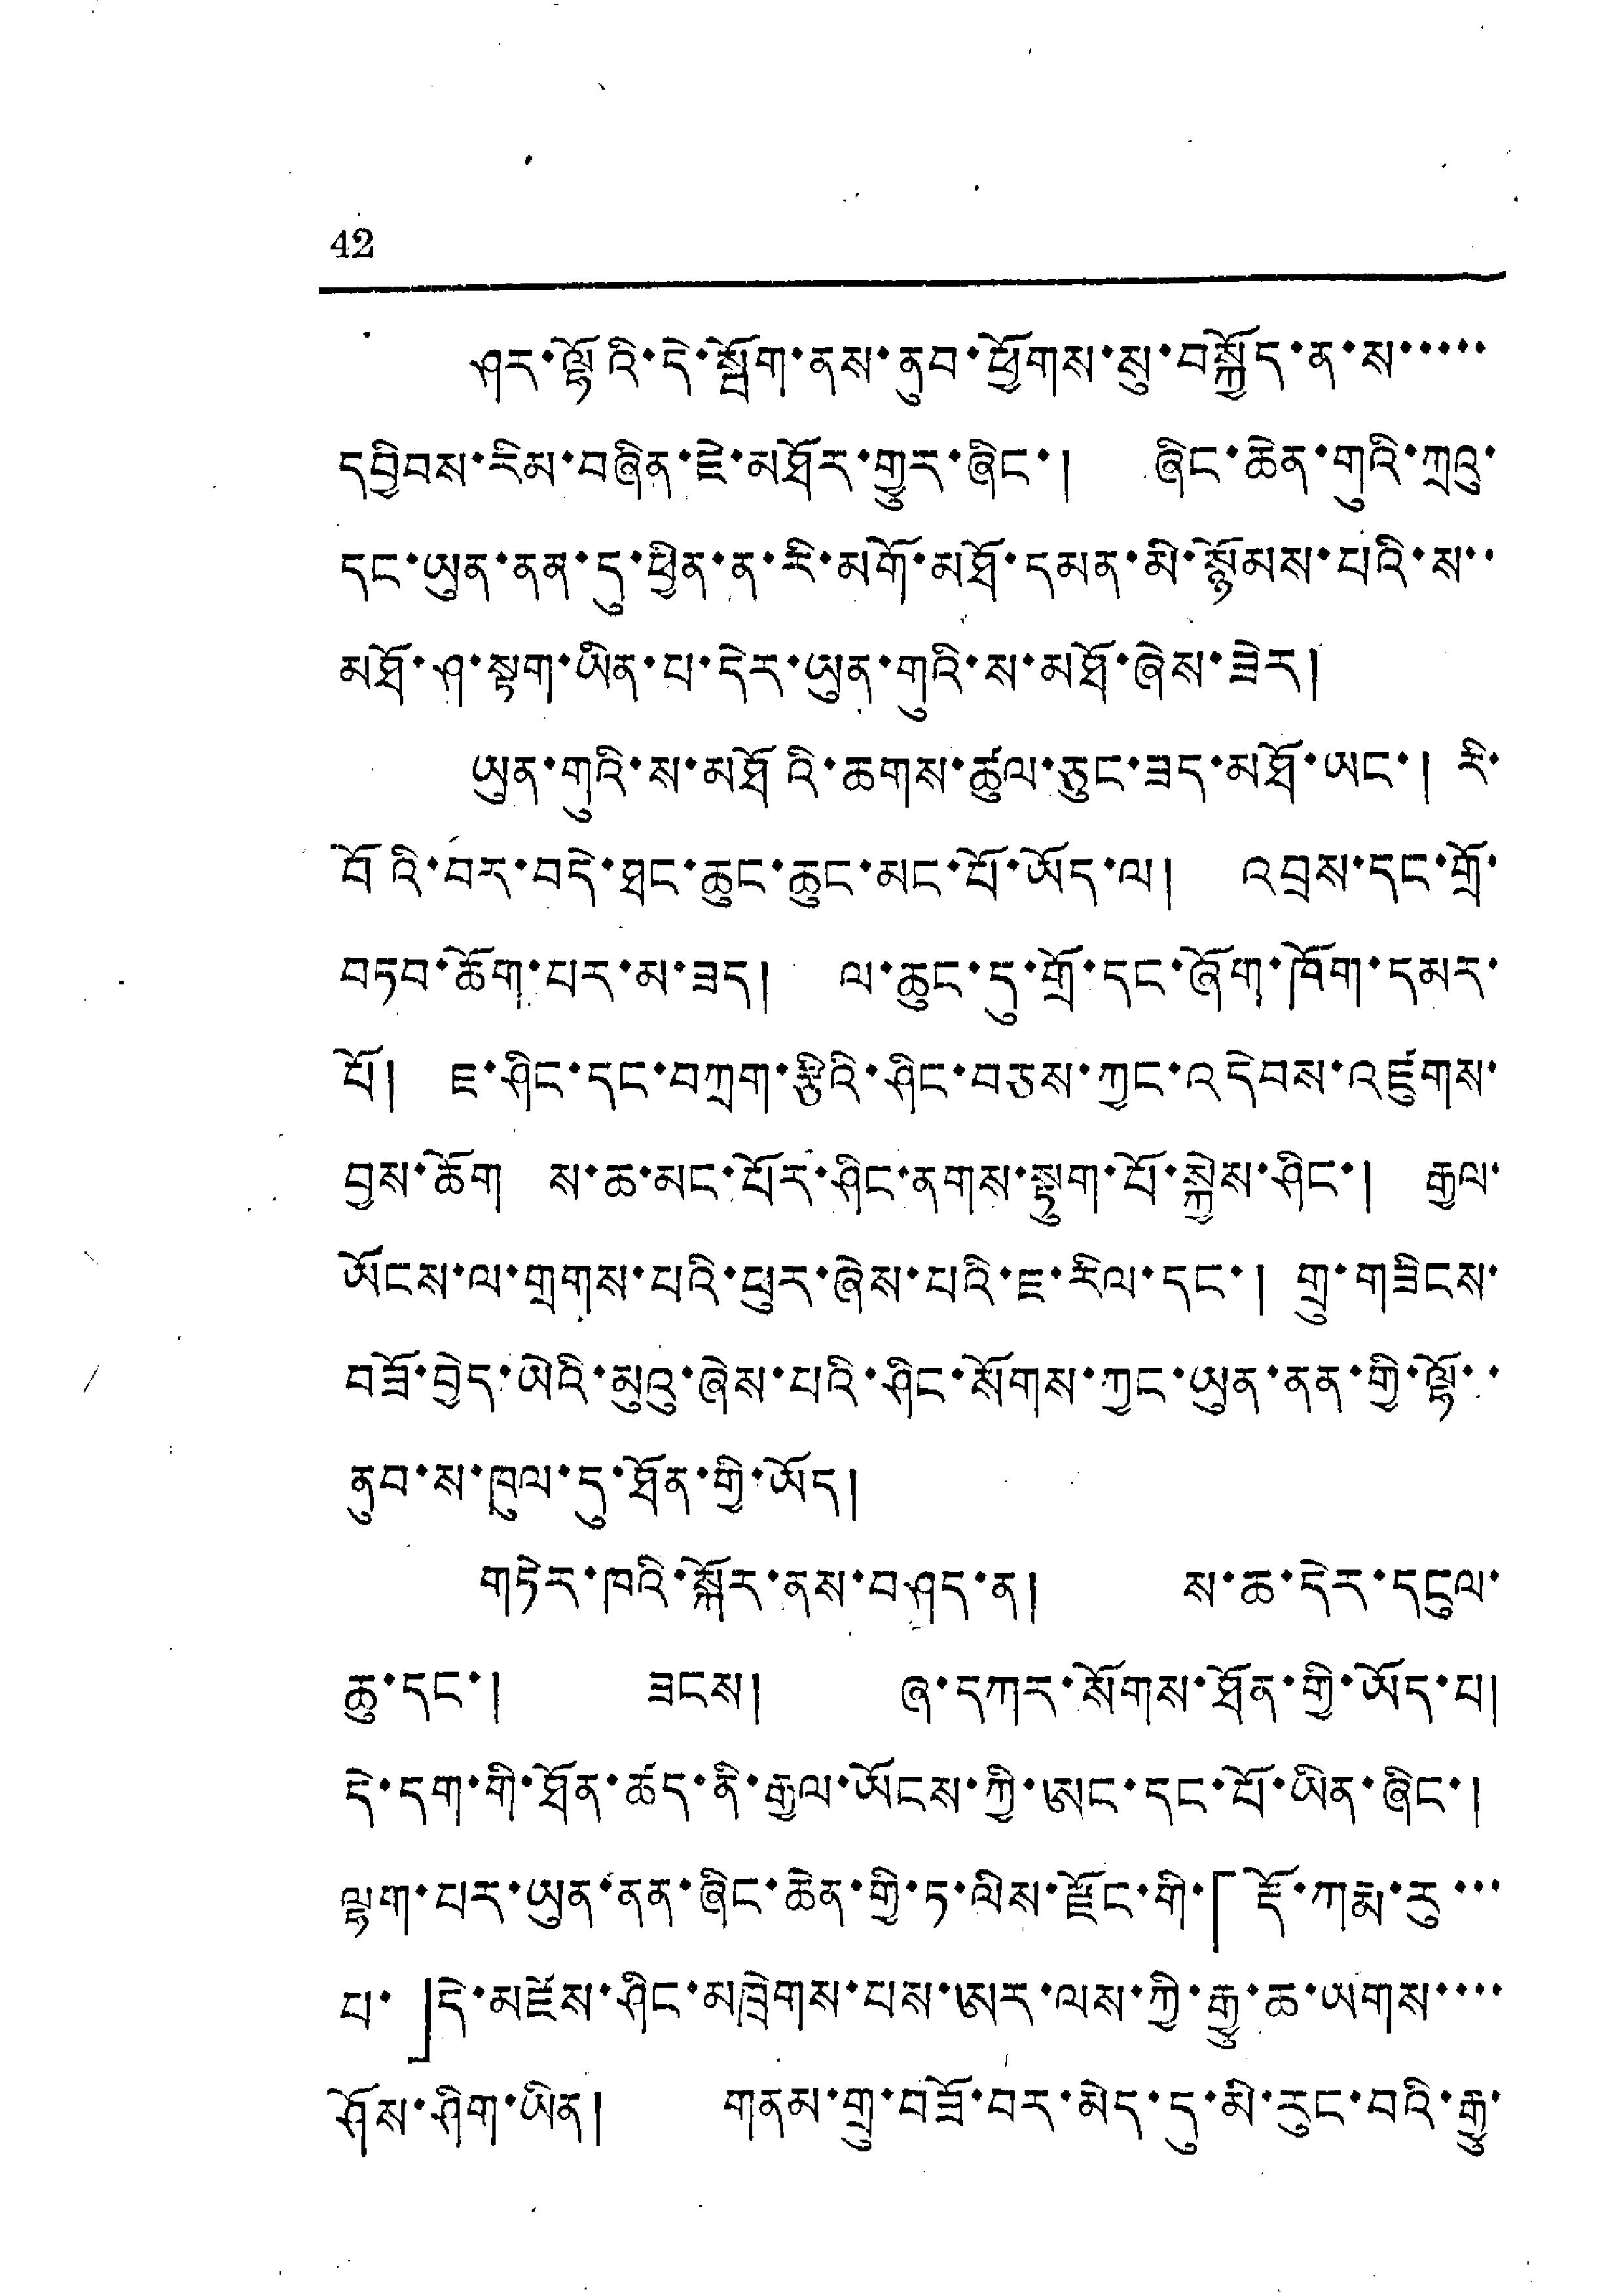42
ཤར་ལྷོའི་དེ་སྦོག་ནས་ནུབ་ཕྱོགས་སུ་བསྐྱོད་ན་ས་་་་་
དབྱིབས་རིམ་བཞིན་ཇེ་མཐོར་གྱུར་ཞིང་། ཞིང་ཆེན་གུའི་ཀྲའུ་
དང་ཡུན་ནན་དུ་ཕྱིན་ན་རི་མགོ་མཐོ་དམན་མི་སྙོམས་པའི་ས་་
མཐོ་ཤ་སྟག་ཡིན་པ་དེར་ཡུན་གུའི་ས་མཐོ་ཞེས་ཟེར།
ཡུན་གུའི་ས་མཐོའི་ཆགས་ཚུལ་ཅུང་ཟད་མཐོ་ཡང་། རི་
བོའི་བར་བདེ་ཐང་ཆུང་ཆུང་མང་པོ་ཡོད་ལ། འབྲས་དང་གྲོ་
བཏབ་ཆོག་པར་མ་ཟད། ལ་ཆུང་དུ་གྲོ་དང་ཞོག་ཁོག་དམར་
པོ། ཇ་ཤིང་དང་བཀྲག་རྩིའི་ཤིང་བཅས་ཀྱང་འདེབས་འཛུགས་
བྱས་ཆོག ས་ཆ་མང་པོར་ཤིང་ནགས་སྟག་པོ་སྐྱེས་ཤིང་། རྒྱལ་
ཡོངས་ལ་གྲགས་པའི་ཕུར་ཞེས་པའི་ཇ་རིལ་དང་། གྲུ་གཟིངས་
བཟོ་བྱེད་ཡེའི་མུའུ་ཞེས་པའི་ཤིང་སོགས་ཀྱང་ཡུན་ནན་གྱི་ལྷོ་
ནུབ་ས་ཁུལ་དུ་ཐོན་གྱི་ཡོད།
གཏེར་ཁའི་སྐོར་ནས་བཤད་ན། ས་ཆ་དེར་དངུལ་
ཆུ་དང་། ཟངས། ཞ་དཀར་སོགས་ཐོན་གྱི་ཡོད་པ།
དེ་དག་གི་ཐོན་ཚད་ནི་རྒྱལ་ཡོངས་ཀྱི་ཨང་དང་པོ་ཡིན་ཞིང་།
ལྷག་པར་ཡུན་ནན་ཞིང་ཆེན་གྱི་ཏ་ལིས་རྫོང་གི་「རྡོ་ཀརྨ་རུ་་་
པ་」དེ་མཛེས་ཤིང་མཁྲེགས་པས་ཨར་ལས་ཀྱི་རྒྱུ་ཆ་ཡགས་་་་
ཤོས་ཤིག་ཡིན། གནམ་གྲུ་བཟོ་བར་མེད་དུ་མི་རུང་བའི་རྒྱུ་
